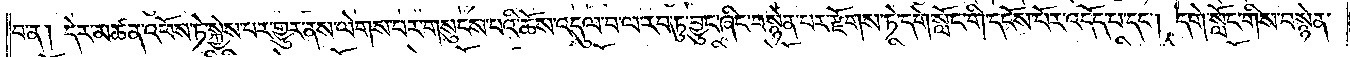བ་ན། དེར་མཚན་འཕོས་ཏེ་སྐྱེས་པར་གྱུར་ནས་ལེགས་པར་གསུངས་པའི་ཆོས་འདུལ་བ་ལ་རབ་ཏུ་བྱུང་ཞིང་བསྙེན་པར་རྫོགས་ཏེ་དགེ་སློང་གི་དངོས་པོར་འདོད་པ་དང༌། དགེ་སློང་གིས་བསྙེན་
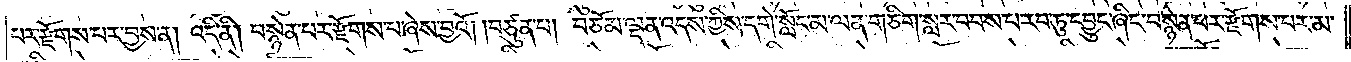པར་རྫོགས་པར་བྱས་ན། འདི་ནི། བསྙེན་པར་རྫོགས་པ་ཞེས་བྱའོ། །བཙུན་པ། བཅོམ་ལྡན་འདས་ཀྱིས་དགེ་སློང་མ་ལན་གཅིག་སླར་བབས་པ་རབ་ཏུ་དབྱུང་ཞིང་བསྙེན་པར་རྫོགས་པར་མ་
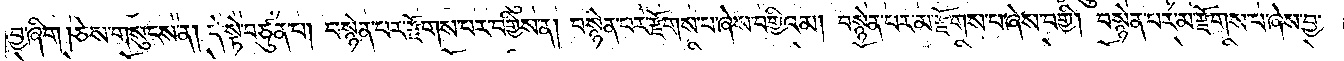བྱ་ཞིག །ཅེས་གསུངས་ན། དེ་སྟེ་བཙུན་པ། བསྙེན་པར་རྫོགས་པར་བགྱིས་ན། བསྙེན་པར་རྫོགས་པ་ཞེས་བགྱིའམ། བསྙེན་པར་མ་རྫོགས་པ་ཞེས་བགྱི། བསྙེན་པར་མ་རྫོགས་པ་ཞེས་བྱ་
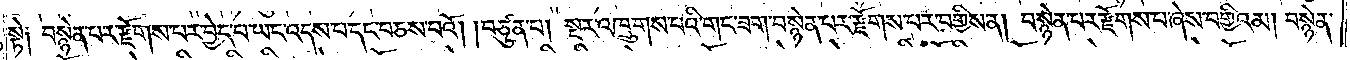སྟེ༑ བསྙེན་པར་རྫོགས་པར་བྱེད་པ་ཡང་འདས་པ་དང་བཅས་པའོ། །བཙུན་པ། སྔར་འཁྲུགས་པའི་གང་ཟག་བསྙེན་པར་རྫོགས་པར་བགྱིས་ན། བསྙེན་པར་རྫོགས་པ་ཞེས་བགྱིའམ། བསྙེན་
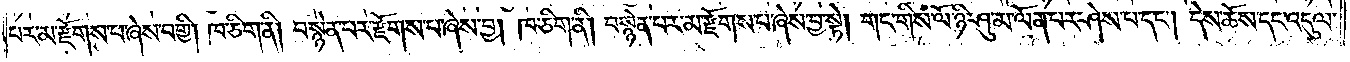པར་མ་རྫོགས་པ་ཞེས་བགྱི། ཁ་ཅིག་ནི། བསྙེན་པར་རྫོགས་པ་ཞེས་བྱ། ཁ་ཅིག་ནི། བསྙེན་པར་མ་རྫོགས་པ་ཞེས་བྱ་སྟེ། གང་གིས་ལོ་ཉི་ཤུ་མ་ལོན་པར་ཤེས་པ་དང༌། དེས་ཆོས་དང་འདུལ་
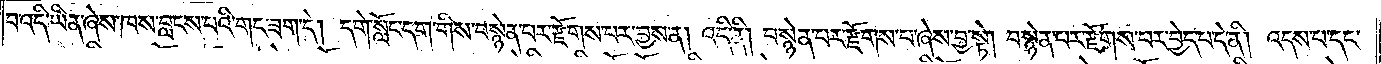བ་འདི་ཡིན་ཞེས་ཁས་བླངས་པའི་གང་ཟག་དེ། དགེ་སློང་དག་གིས་བསྙེན་པར་རྫོགས་པར་བྱས་ན། འདི་ནི། བསྙེན་པར་རྫོགས་པ་ཞེས་བྱ་སྟེ། བསྙེན་པར་རྫོགས་པར་བྱེད་པ་དེ་ནི། འདས་པ་དང་
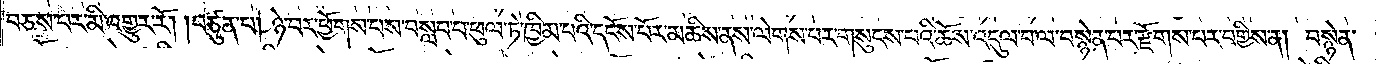བཅས་པར་མི་འགྱུར་རོ། །བཙུན་པ། ཉེ་བར་ཕྱོགས་པས་བསླབ་པ་ཕུལ་ཏེ་ཁྱིམ་པའི་དངོས་པོར་མཆིས་ནས་ལེགས་པར་གསུངས་པའི་ཆོས་འདུལ་བ་ལ་བསྙེན་པར་རྫོགས་པར་བགྱིས་ན། བསྙེན་
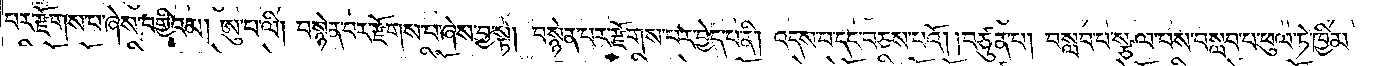པར་རྫོགས་པ་ཞེས་བགྱིའམ། ཨུ་པ་ལི། བསྙེན་པར་རྫོགས་པ་ཞེས་བྱ་སྟེ། བསྙེན་པར་རྫོགས་པར་བྱེད་པ་ནི། འདས་པ་དང་བཅས་པའོ། །བཙུན་པ། བསླབ་པ་སྩལ་པས་བསླབ་པ་ཕུལ་ཏེ་ཁྱིམ་
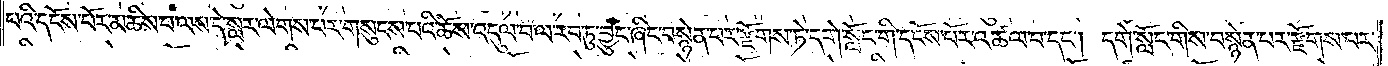པའི་དངོས་པོར་མཆིས་པ་ལས་དེ་སླར་ལེགས་པར་གསུངས་པའི་ཆོས་འདུལ་བ་ལ་རབ་ཏུ་བྱུང་ཞིང་བསྙེན་པར་རྫོགས་ཏེ་དགེ་སློང་གི་དངོས་པོར་འཚལ་བ་དང༌། དགེ་སློང་གིས་བསྙེན་པར་རྫོགས་པར་
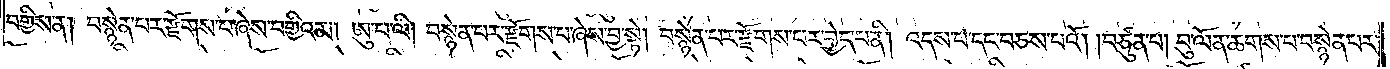བགྱིས་ན། བསྙེན་པར་རྫོགས་པ་ཞེས་བགྱིའམ། ཨུ་པ་ལི། བསྙེན་པར་རྫོགས་པ་ཞེས་བྱ་སྟེ། བསྙེན་པར་རྫོགས་པར་བྱེད་པ་ནི། འདས་པ་དང་བཅས་པའོ། །བཙུན་པ། བུ་ལོན་ཆགས་པ་བསྙེན་པར་
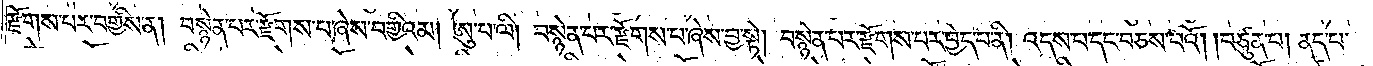རྫོགས་པར་བགྱིས་ན། བསྙེན་པར་རྫོགས་པ་ཞེས་བགྱིའམ། ཨུ་པ་ལི། བསྙེན་པར་རྫོགས་པ་ཞེས་བྱ་སྟེ། བསྙེན་པར་རྫོགས་པར་བྱེད་པ་ནི། འདས་པ་དང་བཅས་པའོ། །བཙུན་པ། ནད་པ་
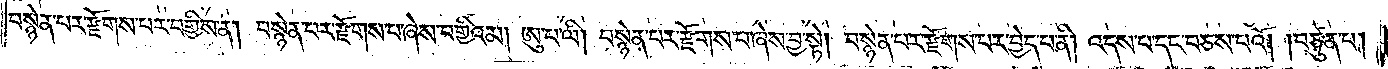བསྙེན་པར་རྫོགས་པར་བགྱིས་ན། བསྙེན་པར་རྫོགས་པ་ཞེས་བགྱིའམ། ཨུ་པ་ལི། བསྙེན་པར་རྫོགས་པ་ཞེས་བྱ་སྟེ། བསྙེན་པར་རྫོགས་པར་བྱེད་པ་ནི། འདས་པ་དང་བཅས་པའོ། །བཙུན་པ།
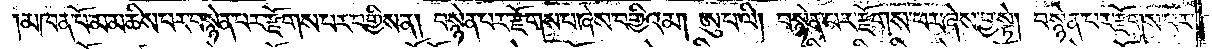།མཁན་པོ་མ་མཆིས་པར་བསྙེན་པར་རྫོགས་པར་བགྱིས་ན། བསྙེན་པར་རྫོགས་པ་ཞེས་བགྱིའམ། ཨུ་པ་ལི། བསྙེན་པར་རྫོགས་པར་ཞེས་བྱ་སྟེ། བསྙེན་པར་རྫོགས་པར་
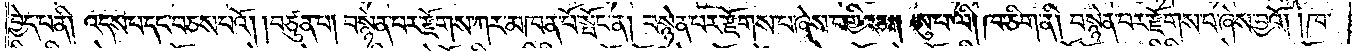བྱེད་པ་ནི། འདས་པ་དང་བཅས་པའོ། །བཙུན་པ། བསྙེན་པར་རྫོགས་ཀར་མཁན་པོ་སྤོང་ན། བསྙེན་པར་རྫོགས་པ་ཞེས་བགྱིའམ། ཨུ་པ་ལི། ཁ་ཅིག་ནི། བསྙེན་པར་རྫོགས་པ་ཞེས་བྱའོ། །ཁ་
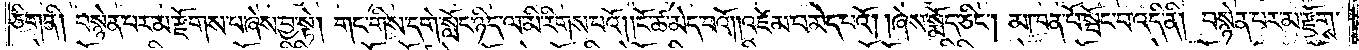ཅིག་ནི། བསྙེན་པར་མ་རྫོགས་པ་ཞེས་བྱ་སྟེ། གང་གིས་དགེ་སློང་ཉིད་ལ་མི་རིགས་པའོ། །ངོ་ཚ་མེད་པའོ། །འཛེམ་པ་མེད་པའོ། །ཞེས་སྨོད་ཅིང༌། མཁན་པོ་སྦོང་བ་འདི་ནི། བསྙེན་པར་མ་རྫོགས་
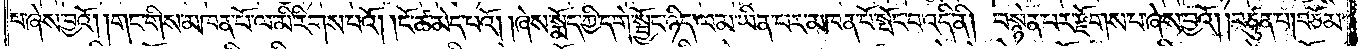པ་ཞེས་བྱའོ། །གང་གིས་མཁན་པོ་ལ་མི་རིགས་པའོ། །ངོ་ཚ་མེད་པའོ། །ཞེས་སྨོད་ཀྱི་དགེ་སྦྱོང་ཉིད་ལ་མ་ཡིན་པར་མཁན་པོ་སྦོང་བ་འདི་ནི། བསྙེན་པར་རྫོགས་པ་ཞེས་བྱའོ། །བཙུན་པ། བཅོམ་
